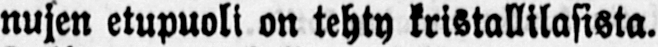nujen etupuoli on tehty kristallilasista.
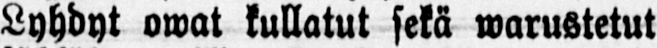Lyhdyt owat kullatut sekä warustetut
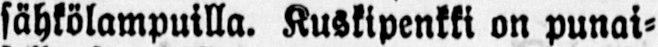sähkölampuilla. Kuskipenkki on punai-
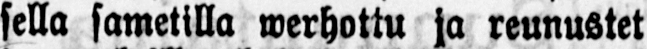sella sametilla werhottu ja reunustet
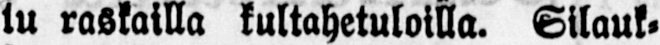tu raskailla kultahetuloilla. Silauk-
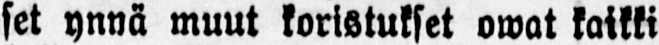set ynnä muut koristukset owat kaikki
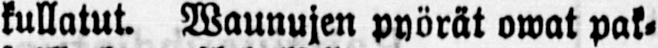kullatut. Waunujen pyörät owat pak-
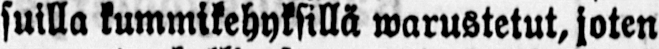suilla kummikehyksillä warustetut, joten
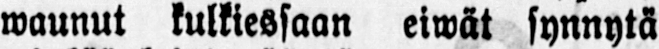waunut kulkiessaan eiwät synnytä
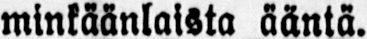minkäänlaista ääntä.
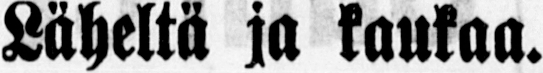Läheltä ja kaukaa.
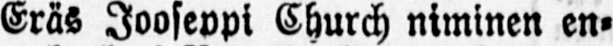Eräs Jooseppi Church niminen en-
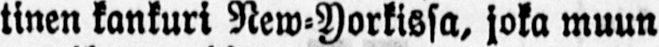tinen kankuri New-Yorkissa, joka muun
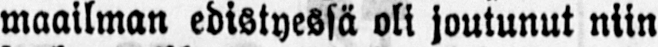maailman edistyessä oli joutunut niin
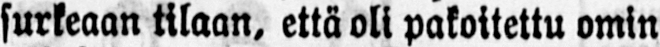surkeaan tilaan, että oli pakoitettu omin
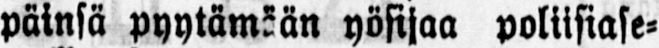päinsä pyytämään yösijaa poliisiase-
